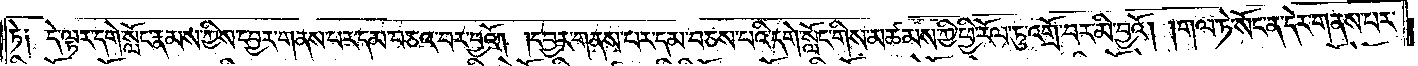ཏེ༑ དེ་ལྟར་དགེ་སློང་རྣམས་ཀྱིས་དབྱར་གནས་པར་དམ་བཅའ་བར་བྱའོ། །དབྱར་གནས་པར་དམ་བཅས་པའི་དགེ་སློང་གིས་མཚམས་ཀྱི་ཕྱི་རོལ་ཏུ་འགྲོ་བར་མི་བྱའོ། །གལ་ཏེ་སོང་ན་དེར་གནས་པར་
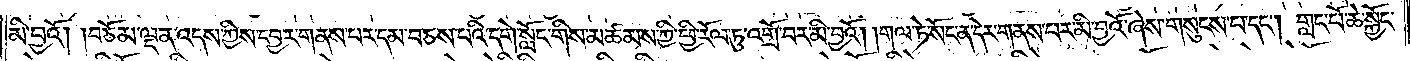མི་བྱའོ། །བཅོམ་ལྡན་འདས་ཀྱིས་དབྱར་གནས་པར་དམ་བཅས་པའི་དགེ་སློང་གིས་མཚམས་ཀྱི་ཕྱི་རོལ་ཏུ་འགྲོ་བར་མི་བྱའོ། །གལ་ཏེ་སོང་ན་དེར་གནས་པར་མི་བྱའོ་ཞེས་གསུངས་པ་དང༌། གླང་པོ་ཆེ་སྐྱོང་
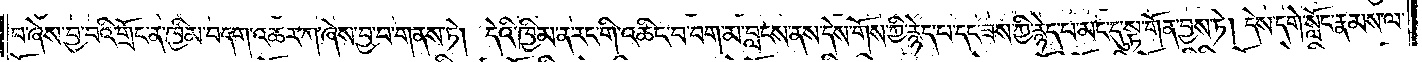བ་ཞེས་བྱ་བའི་གྲོང་ན་ཁྱིམ་བདག་འཆར་ཀ་ཞེས་བྱ་བ་གནས་ཏེ། དེའི་ཁྱིམ་ན་རང་གི་འཆིང་བ་བག་མ་བླངས་ནས་དེས་གོས་ཀྱི་རྙེད་པ་དང་ཟས་ཀྱི་རྙེད་པ་མང་དུ་སྟ་གོན་བྱས་ཏེ། དེས་དགེ་སློང་རྣམས་ལ་
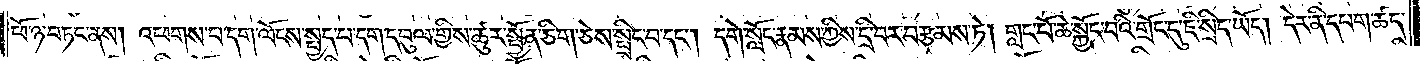ཕོ་ཉ་བཏང་ནས། འཕགས་པ་དག་ལོངས་སྤྱད་པ་དག་དབུལ་གྱིས་ཚུར་སྤྱོན་ཅིག་ཅེས་སྤྲིང་བ་དང༌། དགེ་སློང་རྣམས་ཀྱིས་དྲི་བར་བརྩམས་ཏེ། གླང་པོ་ཆེ་སྐྱོང་བའི་གྲོང་དུ་ཇི་སྲིད་ཡོད། དེར་ནི་དཔག་ཚད་
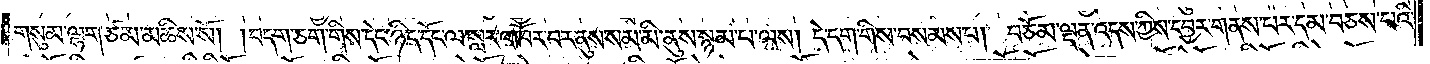གསུམ་ལྷག་ཙམ་མཆིས་སོ། །བདག་ཅག་གིས་དེང་ཉིད་དོང་ལ་སླར་འཁོར་བར་ནུས་སམ་མི་ནུས་སྙམ་པ་ལས། དེ་དག་གིས་བསམས་པ། བཅོམ་ལྡན་འདས་ཀྱིས་དབྱར་གནས་པར་དམ་བཅས་པའི་
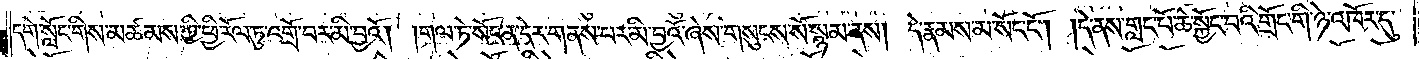དགེ་སློང་གིས་མཚམས་ཀྱི་ཕྱི་རོལ་ཏུ་འགྲོ་བར་མི་བྱའོ། །གལ་ཏེ་སོང་ན་དེར་གནས་པར་མི་བྱའོ་ཞེས་གསུངས་སོ་སྙམ་ནས། དེ་རྣམས་མ་སོང་ངོ༌། །དེ་ནས་གླང་པོ་ཆེ་སྐྱོང་བའི་གྲོང་གི་ཉེ་འཁོར་དུ་
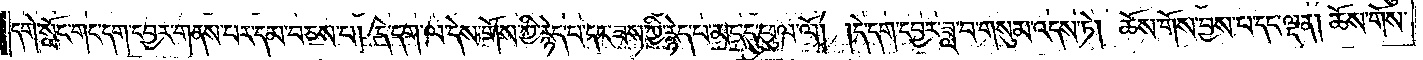དགེ་སློང་གང་དག་དབྱར་གནས་པར་དམ་བཅས་པ། དེ་དག་ལ་དེས་གོས་ཀྱི་རྙེད་བ་དང་ཟས་ཀྱི་རྙེད་པ་མང་དུ་ཕུལ་ལོ། །དེ་དག་དབྱར་ཟླ་བ་གསུམ་འདས་ཏེ། ཆོས་གོས་བྱས་པ་དང་ལྡན། ཆོས་གོས་
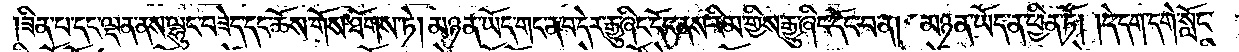ཟིན་པ་དང་ལྡན་ནས་ལྷུང་བཟེད་དང་ཆོས་གོས་ཐོགས་ཏེ། མཉན་ཡོད་གང་ན་བ་དེར་རྒྱུ་ཞིང་དོང་ནས་རིམ་གྱིས་རྒྱུ་ཞིང་དོང་བ་ན། མཉན་ཡོད་ན་ཕྱིན་ཏོ། །དེ་དག་དགེ་སློང་
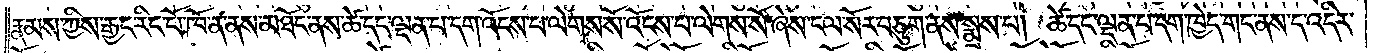རྣམས་ཀྱིས་རྒྱང་རིང་པོ་ཁོ་ན་ནས་མཐོང་ནས་ཚེ་དང་ལྡན་པ་དག་འོངས་པ་ལེགས་སོ་འོངས་པ་ལེགས་སོ་ཞེས་ངལ་སོར་བཅུག་ནས་སྨྲས་པ། ཚེ་དང་ལྡན་པ་དག་ཁྱེད་གང་ནས་ད་འདིར་
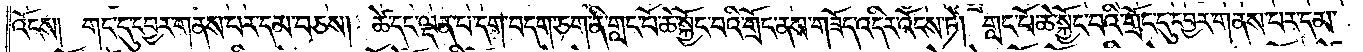འོངས། གང་དུ་དབྱར་གནས་པར་དམ་བཅས། ཚེ་དང་ལྡན་པ་དག་བདག་ཅག་ནི་གླང་པོ་ཆེ་སྐྱོང་བའི་གྲོང་ནས་གཟོད་འདིར་འོངས་ཏེ། གླང་པོ་ཆེ་སྐྱོང་བའི་གྲོང་དུ་དབྱར་གནས་པར་དམ་
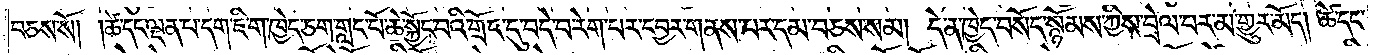བཅས་སོ། །ཚེ་དང་ལྡན་པ་དག་ཇི་ག་ཁྱེད་ཅག་གླང་པོ་ཆེ་སྐྱོང་བའི་གྲོང་དུ་བདེ་བ་རེག་པར་དབྱར་གནས་པར་དམ་བཅས་སམ། དེ་ན་ཁྱེད་བསོད་སྙོམས་ཀྱིས་བྲེལ་བར་མ་གྱུར་མོད། ཚེ་དང་
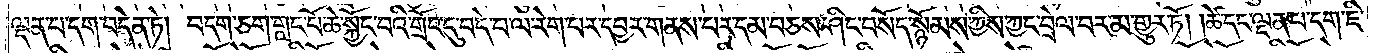ལྡན་པ་དག་བདེན་ཏེ། བདག་ཅག་གླང་པོ་ཆེ་སྐྱོང་བའི་གྲོང་དུ་བདེ་བ་ལ་རེག་པར་དབྱར་གནས་པར་དམ་བཅས་ཤིང་བསོད་སྙོམས་ཀྱིས་ཀྱང་བྲེལ་བར་མ་གྱུར་ཏོ། །ཚེ་དང་ལྡན་པ་དག་ཇི་
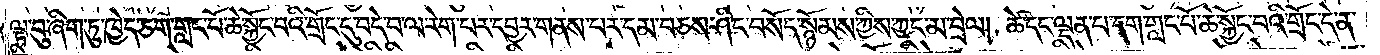ལྟ་བུ་ཞིག་ཏུ་ཁྱེད་ཅག་གླང་པོ་ཆེ་སྐྱོང་བའི་གྲོང་དུ་བདེ་བ་ལ་རེག་པར་དབྱར་གནས་པར་དམ་བཅས་ཤིང་བསོད་སྙོམས་ཀྱིས་ཀྱང་མ་བྲེལ། ཚེ་དང་ལྡན་པ་དག་གླང་པོ་ཆེ་སྐྱོང་བའི་གྲོང་དེ་ན་
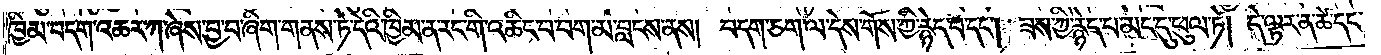ཁྱིམ་བདག་འཆར་ཀ་ཞེས་བྱ་བ་ཞིག་གནས་ཏེ་དེའི་ཁྱིམ་ན་རང་གི་འཆིང་བ་བག་མ་བླངས་ནས། བདག་ཅག་ལ་དེས་གོས་ཀྱི་རྙེད་པ་དང༌། ཟས་ཀྱི་རྙེད་པ་མང་དུ་ཕུལ་ཏེ། དེ་ལྟར་ན་ཚེ་དང་
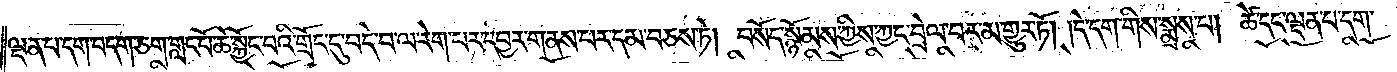ལྡན་པ་དག་བདག་ཅག་གླང་པོ་ཆེ་སྐྱོང་བའི་གྲོང་དུ་བདེ་བ་ལ་རེག་པར་དབྱར་གནས་པར་དམ་བཅས་ཏེ། བསོད་སྙོམས་ཀྱིས་ཀྱང་བྲེལ་བར་མ་གྱུར་ཏོ། །དེ་དག་གིས་སྨྲས་པ། ཚེ་དང་ལྡན་པ་དག་
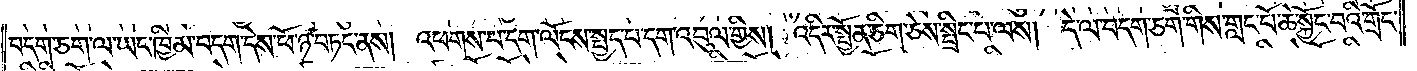བདག་ཅག་ལ་ཡང་ཁྱིམ་བདག་དེས་ཕོ་ཉ་བཏང་ནས། འཕགས་པ་དག་ལོངས་སྤྱད་པ་དག་འབུལ་གྱིས། འདིར་སྤྱོན་ཅིག་ཅེས་སྤྲིང་པ་ལས། དེ་ལ་བདག་ཅག་གིས་གླང་པོ་ཆེ་སྐྱོང་བའི་གྲོང་
